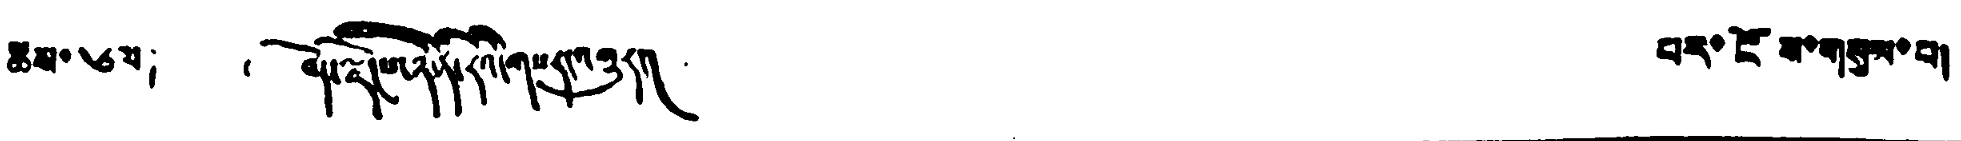ཚེས་ ༦ལ། ༄ བོད་ལྗོངས་ཉིན་རེའི་གསར་འགྱུར། པར་ངོས་གསམ་པ།
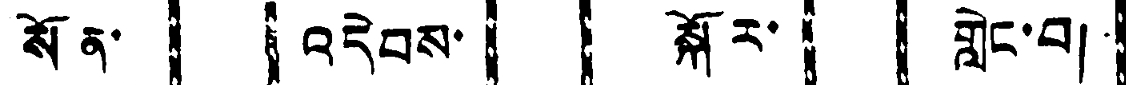སོན་ འདེབས་ སྐོར་ གླེང་བ།
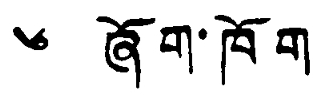༦ ཞོག་ཁོག
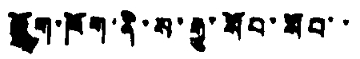ཞོག་ཁོག་ནི་ས་རྒྱུ་སོབ་སོབ་་
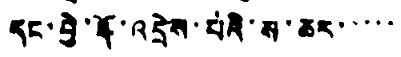དང་བྱེ་རྡོ་འདྲེས་པའི་ས་ཆར་་་་་
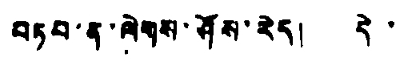བཏབ་ན་ལེགས་ཤོས་རེད། དེ་
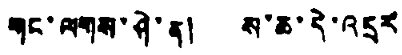གང་ལགས་ཤེ་ན། ས་ཆ་དེ་འདྲར
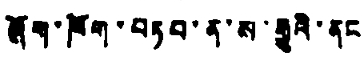ཞོག་ཁོག་བཏབ་ན་ས་རྒྱུའི་ནང
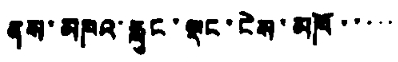ནས་མཁའ་རླུང་ལྡང་ངེས་མཁོ་་་་་
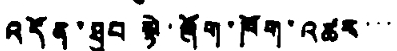འདོན་ཐུབ་སྟེ་ཞོག་ཁོག་འཚར་་་
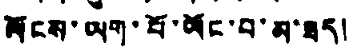ལོངས་ཡག་པོ་ཡོང་བ་མ་ཟད།
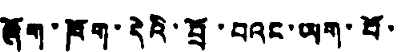ཞོག་ཁོག་དེའི་བྲོ་བའང་ཡག་པོ་
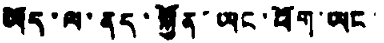ཡོད་ལ་ནད་སྐྱོན་ཡང་ཕོག་ཡང་་
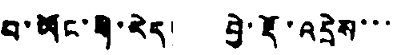བ་ཡོང་གི་རེད། བྱེ་རྡོ་འདྲེས་་་
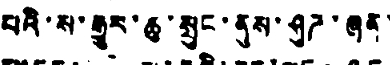པའི་ས་རྒྱུར་ཆུ་སྲུང་ནུས་ཤུཌ་ཞན་
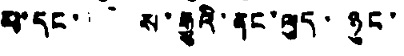པ་དང་ ས་རྒྱུའི་ནང་ལུད་ ཉུང་
